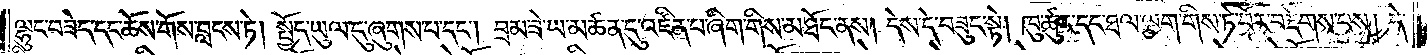ལྷུང་བཟེད་དང་ཆོས་གོས་བླངས་ཏེ། སྤྱོད་ཡུལ་དུ་ཞུགས་པ་དང༌། བྲམ་ཟེ་ཡ་མཚན་དུ་འཛིན་པ་ཞིག་གིས་མཐོང་ནས། དེས་དེ་བཟུང་སྟེ། ཁུ་ཚུར་དང་ཐལ་ལྕག་གིས་ཏེ་བོར་བརྡེགས་པས། དེ་
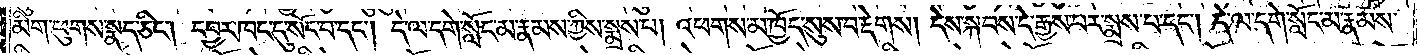མིག་ཕུགས་སྣད་ཅིང༌། དབྱར་ཁང་དུ་སོང་བ་དང༌། དེ་ལ་དགེ་སློང་མ་རྣམས་ཀྱིས་སྨྲས་པ། འཕགས་མ་ཁྱོད་སུས་བརྡེགས། དེས་སྐབས་དེ་རྒྱས་པར་སྨྲས་པ་དང༌། དེ་ལ་དགེ་སློང་མ་རྣམས་
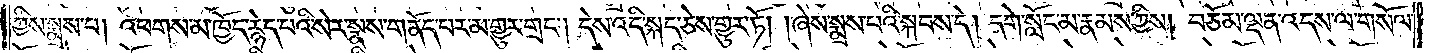ཀྱིས་སྨྲས་པ། འཕགས་མ་ཁྱོད་རྙེད་པའི་སེར་སྣས་གནོད་པར་མ་གྱུར་གྲང༌། དེས་འདི་སྐད་ཅེས་གྱུར་ཏོ། །ཞེས་སྨྲས་པའི་སྐབས་དེ། དགེ་སློང་མ་རྣམས་ཀྱིས། བཅོམ་ལྡན་འདས་ལ་གསོལ་
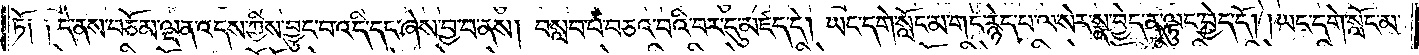ཏོ༑ ༑དེ་ནས་བཅོམ་ལྡན་འདས་ཀྱིས་བྱུང་བ་འདི་དང་ཞེས་བྱ་བ་ནས། བསླབ་པ་བཅའ་བའི་བར་དུ་མཛད་དེ། ཡང་དགེ་སློང་མ་གང་རྙེད་པ་ལ་སེར་སྣ་བྱེད་ན་ལྟུང་བྱེད་དོ། །ཡང་དགེ་སློང་མ་
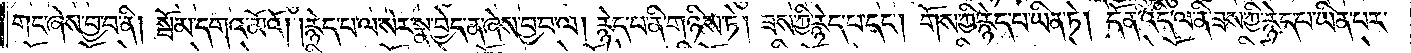གང་ཞེས་བྱ་བ་ནི། སྦོམ་དགའ་མོའོ། །རྙེད་པ་ལ་སེར་སྣ་བྱེད་ན་ཞེས་བྱ་བ་ལ། རྙེད་པ་ནི་གཉིས་ཏེ། ཟས་ཀྱི་རྙེད་པ་དང༌། གོས་ཀྱི་རྙེད་པ་ཡིན་ཏེ། དོན་འདི་ལ་ནི་ཟས་ཀྱི་རྙེད་པ་ཡིན་པར་
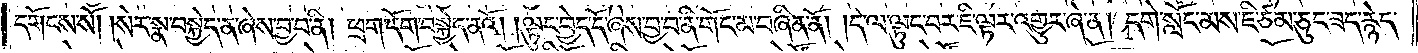དགོངས་སོ། །སེར་སྣ་བསྐྱེད་ན་ཞེས་བྱ་བ་ནི། ཕྲག་དོག་བསྐྱེད་ནའོ། །ལྟུང་བྱེད་དོ་ཞེས་བྱ་བ་ནི་གོང་མ་བཞིན་ནོ། །དེ་ལ་ལྟུང་བར་ཇི་ལྟར་འགྱུར་ཞེ་ན། དགེ་སློང་མས་ཇི་ཙམ་ཅུང་ཟད་རྙེད་
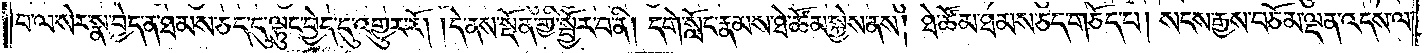བ་ལ་སེར་སྣ་བྱེད་ན་ཐམས་ཅད་དུ་ལྟུང་བྱེད་དུ་འགྱུར་རོ། །དེ་ནས་སྔོན་གྱི་སྦྱོར་བ་ནི། དགེ་སློང་རྣམས་ཐེ་ཚོམ་སྐྱེས་ནས། ཐེ་ཚོམ་ཐམས་ཅད་གཅོད་པ། སངས་རྒྱས་བཅོམ་ལྡན་འདས་ལ་
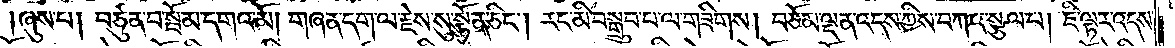།ཞུས་པ། བཙུན་པ་སྦོམ་དགའ་མོ། གཞན་དག་ལ་རྗེས་སུ་སྟོན་ཅིང༌། རང་མི་བསྒྲུབ་པ་ལ་གཟིགས། བཅོམ་ལྡན་འདས་ཀྱིས་བཀའ་སྩལ་པ། ཇི་ལྟར་འདས་
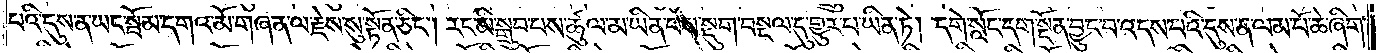པའི་དུས་ན་ཡང་སྦོམ་དགའ་མོ་གཞན་ལ་རྗེས་སུ་སྟོན་ཅིང༌། རང་མི་སྒྲུབ་པས་ཚུལ་མ་ཡིན་པས་སྡུག་བསྔལ་དུ་གྱུར་པ་ཡིན་ཏེ། དགེ་སློང་དག་སྔོན་བྱུང་བ་འདས་པའི་དུས་ན་ལམ་པོ་ཆེ་ཞིག་
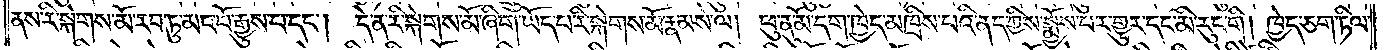ནས་རི་སྐེགས་མོ་རབ་ཏུ་མང་པོ་རྒྱུས་པ་དང༌། དེ་ན་རི་སྐེགས་མོ་ཞིག་ཡོད་པ་རི་སྐེགས་མོ་རྣམས་ལ། ཕུ་ནུ་མོ་དག་ཁྱེད་མཁྲིས་པའི་ནད་ཀྱིས་སྨྱོས་པར་གྱུར་དང་མི་རུང་གི། ཁྱེད་ཅག་ཏིལ་
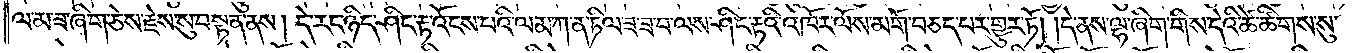ལ་མ་ཟ་ཞིག་ཅེས་རྗེས་སུ་བསྟན་ནས། དེ་རང་ཉིད་ཤིང་རྟ་འོངས་པའི་ལམ་ཀ་ན་ཏིལ་ཟ་ཟ་བ་ལས་ཤིང་རྟའི་འཁོར་ལོས་མགོ་བཅད་པར་གྱུར་ཏོ། །དེ་ནས་ལྷ་ཞིག་གིས་དེའི་ཚེ་ཚིགས་སུ་
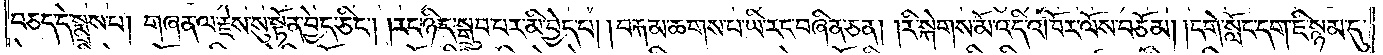བཅད་དེ་སྨྲས་པ། གཞན་ལ་རྗེས་སུ་སྟོན་བྱེད་ཅིང༌། །རང་ཉིད་སྒྲུབ་པར་མི་བྱེད་པ། །བརྐམ་ཆགས་པ་ཡི་རང་བཞིན་ཅན། །རི་སྐེགས་མོ་འདི་འཁོར་ལོས་བཅོམ། །དགེ་སློང་དག་ཇི་སྙམ་དུ་
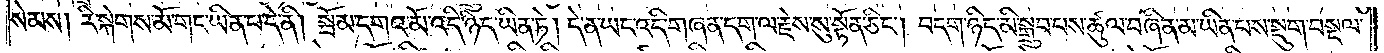སེམས། རི་སྐེགས་མོ་གང་ཡིན་པ་དེ་ནི། སྦོམ་དགའ་མོ་འདི་ཉིད་ཡིན་ཏེ། དེ་ན་ཡང་འདི་གཞན་དག་ལ་རྗེས་སུ་སྟོན་ཅིང༌། བདག་ཉིད་མི་སྒྲུབ་པས་ཚུལ་བཞིན་མ་ཡིན་པས་སྡུག་བསྔལ་
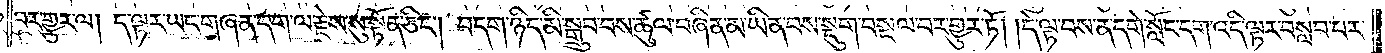བར་གྱུར་ལ། ད་ལྟར་ཡང་གཞན་དག་ལ་རྗེས་སུ་སྟོན་ཅིང༌། བདག་ཉིད་མི་སྒྲུབ་པས་ཚུལ་བཞིན་མ་ཡིན་པས་སྡུག་བསྔལ་བར་གྱུར་ཏོ། །དེ་ལྟ་བས་ན་དགེ་སློང་དག་འདི་ལྟར་བསླབ་པར་
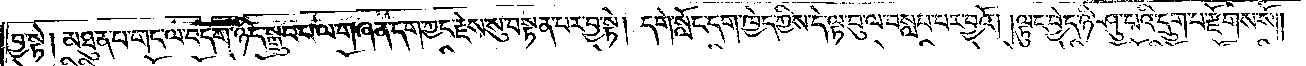བྱ་སྟེ། མཐུན་པ་གང་ལ་བདག་ཉིད་སྒྲུབ་པ་ལ་གཞན་དག་ཀྱང་རྗེས་སུ་བསྟན་པར་བྱ་སྟེ། དགེ་སློང་དག་ཁྱེད་ཀྱིས་དེ་ལྟ་བུ་ལ་བསླབ་པར་བྱའོ། །ལྟུང་བྱེད་ཉི་ཤུ་པའི་དྲུག་པ་རྫོགས་སོ༎
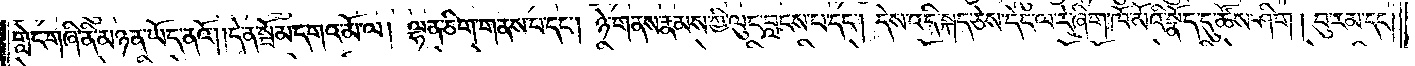གླེང་གཞི་ནི་མཉན་ཡོད་ནའོ། །དེ་ན་སྦོམ་དགའ་མོ་ལ། ལྷན་ཅིག་གནས་པ་དང༌། ཉེ་གནས་རྣམས་ཀྱི་ལུང་བླངས་པ་དང༌། དེས་འདི་སྐད་ཅེས་དེང་ལ་རེ་ཞིག་ཁོ་མོའི་སྣོད་དུ་ཆོས་ཤིག། བུ་རམ་དང༌།
